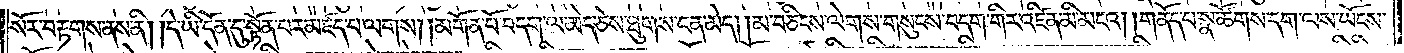སོར་བརྟགས་ནས་ནི། །དེ་ཡི་དོན་དུ་སྟོན་པར་མཛད་པ་ལགས། །མགོན་པོ་བདག་ལ་མེད་ཅེས་ཐུགས་ངན་མེད། །མ་བཅིངས་ལེགས་གསུངས་བདག་གིར་འཛིན་མི་མངའ། །གནོད་པ་སྣ་ཚོགས་དག་ལས་ཡོངས་
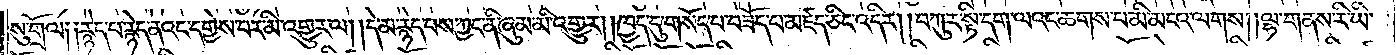སུ་གྲོལ༑ རྙེད་པ་རྙེད་ནའང་དགྱེས་པར་མི་འགྱུར་ལ། །དེ་མ་རྙེད་པས་ཀྱང་ནི་ཞུམ་མི་འགྱུར། །ཁྱད་དུ་གསོད་པ་བཟོད་པ་མཛད་ཅིང་འདིར། །བཀུར་སྟི་དག་ལའང་ཆགས་པ་མི་མངའ་ལགས། །ལྷ་གནས་རི་ཡི་
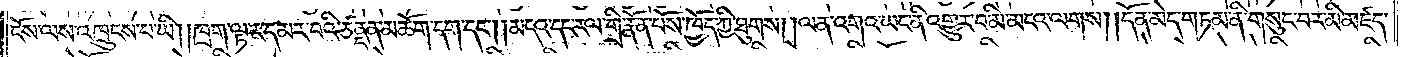ངོས་ལས་འཁྲུངས་པ་ཡི། །ཁྲག་ལྟར་དམར་པའི་ཙནྡན་མཆོག་དག་དང༌། །མདའ་དང་རལ་གྲི་རྣོན་པོས་ཁྱོད་ཀྱི་ཐུགས། །ལན་འགའ་ཡང་ནི་འགྱུར་བ་མི་མངའ་ལགས། །དོན་མེད་གཏམ་ནི་གསུང་བར་མི་མཛད་
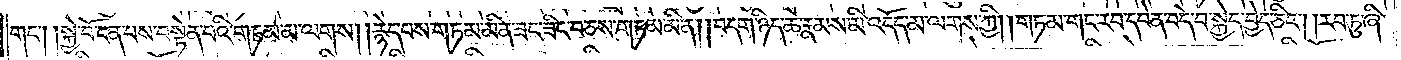གང༌། །སྐྱེ་བོ་ངན་པས་བསྟེན་པའི་གཏན་མ་ལགས། རྙེད་པས་གཏམ་མིན་ཟང་ཟིང་བཅས་གཏམ་མིན། །བདག་ཉིད་ཆེ་རྣམས་མི་འདོད་མ་ལགས་ཀྱི། །གཏམ་གང་རབ་དབེན་བདེ་བ་སྐྱེད་བྱེད་ཅིང༌། །རབ་ཏུ་ཞི་
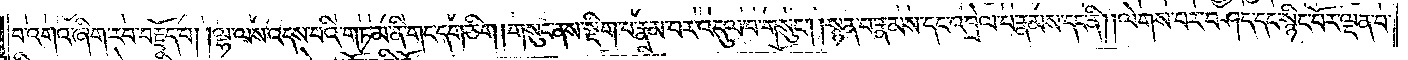བ་འགའ་ཞིག་རབ་བརྗོད་པ། །ལྷ་ལས་འདས་པའི་གཏམ་ནི་གང་དག་ཅིག །གསུང་ནས་སྡིག་པ་རྣམ་པར་འདུལ་བ་གསུང༌། །སྙན་པ་རྣམས་དང་འབྲེལ་པ་རྣམས་དང་ནི། །ལེགས་པར་བཤད་དང་སྙིང་པོར་ལྡན་པ།
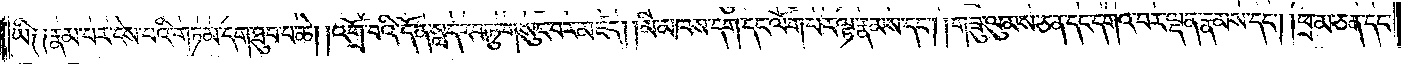ཡི༑ ༑རྣམ་པར་ངེས་པའི་གཏམ་དག་ཐུབ་པ་ཆེ། །འགྲོ་བའི་དོན་སླད་རབ་ཏུ་གསུང་བར་མཛད། །མི་མཁས་དག་དང་ལོག་པར་ལྟ་རྣམས་དང༌། །གཟུ་ལུམས་ཅན་དང་དགའ་བར་ལྡན་རྣམས་དང༌། །ཕྲ་མ་ཅན་དང་
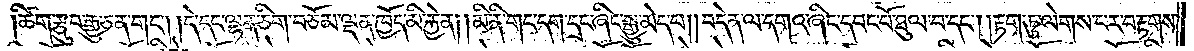ཚིག་རྩུབ་རྒྱུ་ཅན་གང༌། །དེ་དང་ལྷན་ཅིག་བཅོམ་ལྡན་ཁྱོད་མི་རྐྱེན། །མི་ནི་གང་དག་དྲང་ཞིང་སྒྱུ་མེད་པ། །བདེན་ལ་དགའ་ཞིང་དབང་པོ་ཐུལ་བ་དང༌། །རྟག་ཏུ་ལེགས་པར་བརྟགས་
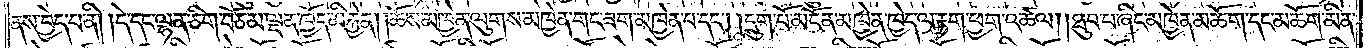ནས་བྱེད་པ་ནི། །དེ་དང་ལྷན་ཅིག་བཅོམ་ལྡན་ཁྱོད་མི་རྐྱེན། །ཆོས་མཁྱེན་ལུགས་མཁྱེན་གང་ཟག་མཁྱེན་པ་དང༌། །དྲུག་པོ་མངོན་མཁྱེན་ཁྱེད་ལ་རྟག་ཕྱག་འཚལ། །ཐུབ་པ་ཞིང་མཁྱེན་མཆོག་དང་མཆོག་མིན་
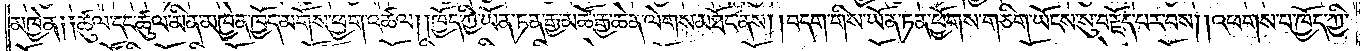མཁྱེན༑ ༑ཚུལ་དང་ཚུལ་མིན་མཁྱེན་ཁྱོད་མགོས་ཕྱག་འཚལ། །ཁྱོད་ཀྱི་ཡོན་ཏན་རྒྱ་མཚོ་རྒྱ་ཆེན་ལེགས་མཐོང་ནས། །བདག་གིས་ཡོན་ཏན་ཕྱོགས་གཅིག་ཡོངས་སུ་བརྗོད་པར་བས། །འཕགས་པ་ཁྱོད་ཀྱི་
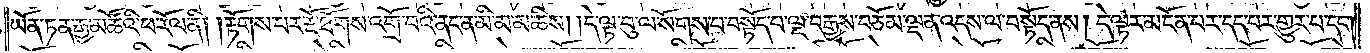ཡོན་ཏན་རྒྱ་མཚོའི་ཕ་རོལ་ནི། །རྟོགས་པར་རྔོ་ཐོགས་འགྲོ་བའི་ནང་ན་མི་མ་མཆིས། །དེ་ལྟ་བུ་ལ་སོགས་པ་བསྟོད་པ་ལྔ་བརྒྱས་བཅོམ་ལྡན་འདས་ལ་བསྟོད་ནས། དེ་ལྟར་མངོན་པར་དད་པར་གྱུར་པ་དང༌།
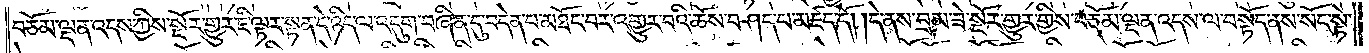བཅོམ་ལྡན་འདས་ཀྱིས་སྔོར་གྱུར་ཇི་ལྟར་སྟན་དེ་ཉིད་ལ་འདུག་བཞིན་དུ་བདེན་པ་མཐོང་བར་འགྱུར་བའི་ཆོས་བཤད་པ་མཛད་དོ། །དེ་ནས་བྲམ་ཟེ་སྔོར་གྱུར་གྱིས་བཅོམ་ལྡན་འདས་ལ་བསྟོད་ནས་སོང་སྟེ་
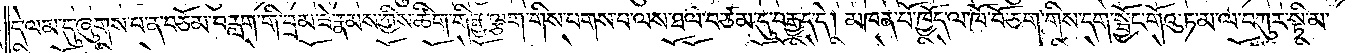དེ་ལམ་དུ་ཞུགས་པ་ན་བཅོམ་བརླག་གི་བྲམ་ཟེ་རྣམས་ཀྱིས་ཚིག་གི་རྒྱ་ལྕག་གིས་པགས་པ་ལས་ཐལ་བ་ཙམ་དུ་བརྒྱད་དེ། མཁན་པོ་ཁྱོད་ལ་ཁོ་བོ་ཅག་གིས་དགེ་སྦྱོང་གོའུ་ཏ་མ་ལ་བཀུར་སྟི་མ་
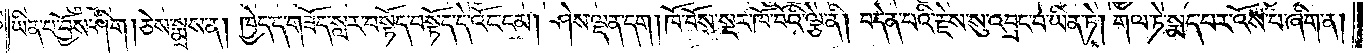ཡིན་པ་བྱོས་ཤིག །ཅེས་སྨྲས་ན། ཁྱེད་ད་གཟོད་སླར་བསྟོད་བསྟོད་དེ་འོང་ངམ། ཤེས་ལྡན་དག །ཁོ་བོས་སྔར་ཁོ་བོའི་ལྕེ་ནི། བདེན་པའི་རྗེས་སུ་འབྲང་བ་ཡིན་ཏེ། གལ་ཏེ་སྨད་པར་འོས་པ་ཞིག་ན།
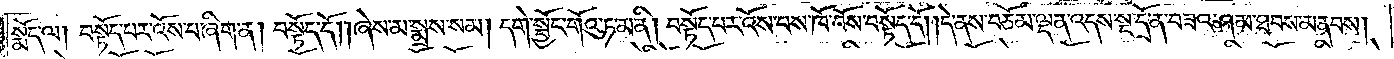སྨོད་ལ། བསྟོད་པར་འོས་པ་ཞིག་ན། བསྟོད་དོ། །ཞེས་མ་སྨྲས་སམ། དགེ་སྦྱོང་གོའུ་ཏ་མ་ནི། བསྟོད་པར་འོས་བས་ཁོ་བོས་བསྟོད་དོ། །དེ་ནས་བཅོམ་ལྡན་འདས་སྔ་དྲོ་ན་བཟའ་ཤམ་ཐབས་མནབས།
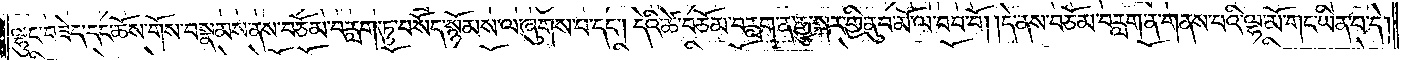ལྷུང་བཟེད་དང་ཆོས་གོས་བསྣམས་ནས་བཅོམ་བརླག་ཏུ་བསོད་སྙོམས་ལ་ཞུགས་པ་དང༌། དེའི་ཚེ་བཅོམ་བརླག་ན་རྒྱུ་སྐར་གྱི་ནུབ་མོ་ལ་བབ་བོ། །དེ་ནས་བཅོམ་བརླག་ན་གནས་པའི་ལྷ་མོ་གང་ཡིན་པ་དེ།
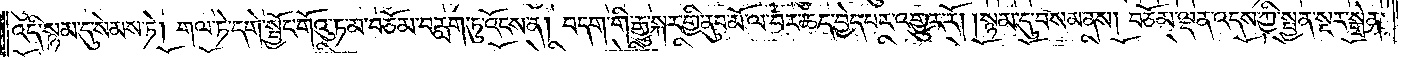འདི་སྙམ་དུ་སེམས་ཏེ། གལ་ཏེ་དགེ་སྦྱོང་གོའུ་ཏ་མ་བཅོམ་བརླག་ཏུ་འོངས་ན། བདག་གི་རྒྱུ་སྐར་གྱི་ནུབ་མོ་ལ་བར་ཆད་བྱེད་པར་འགྱུར་རོ། །སྙམ་དུ་བསམ་ནས། བཅོམ་ལྡན་འདས་ཀྱིས་སྤྱན་སྔར་སྒྲེན་
